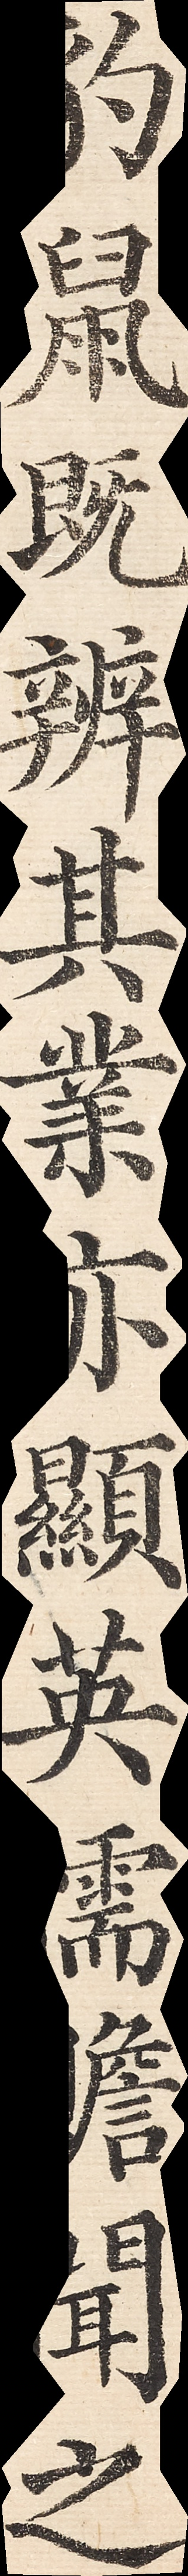豹鼠既辯其業亦顯英儒贍聞之
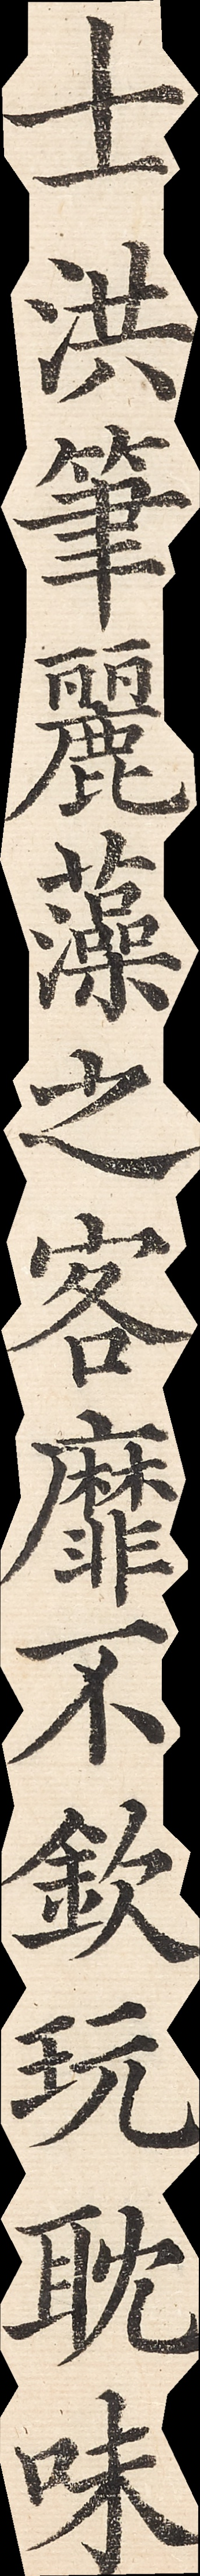士洪筆麗藻之客靡不欽玩耽味
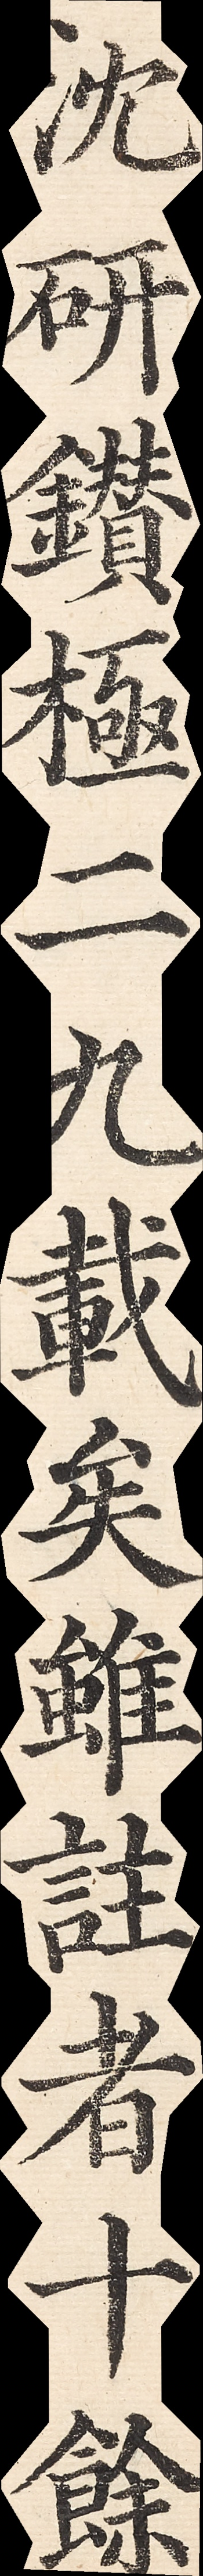沈研鑽極二九載矣雖注者十餘
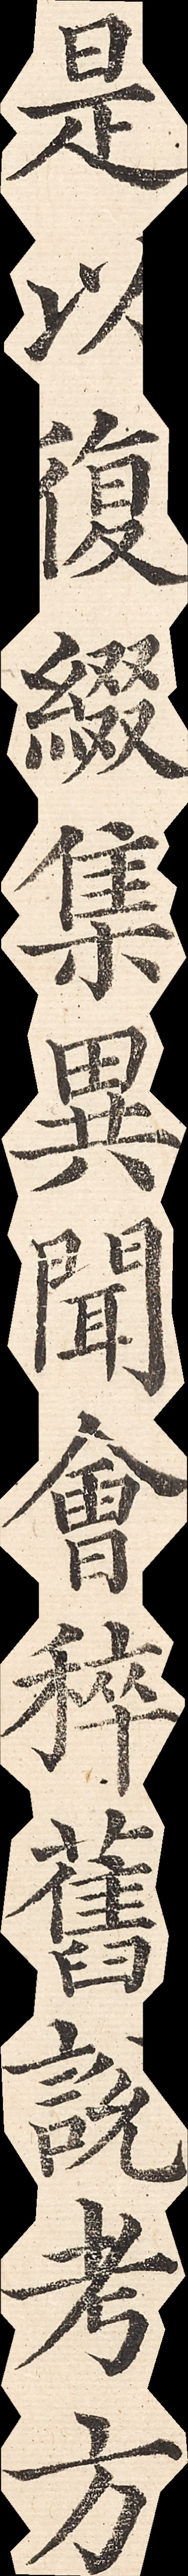是以復綴集異聞會稡舊說考方
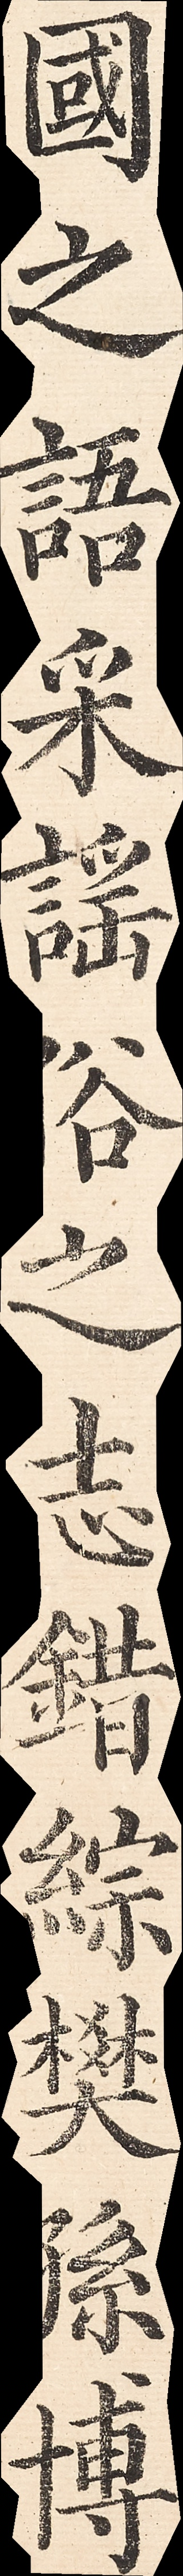國之語采謠俗之志錯綜樊孫博
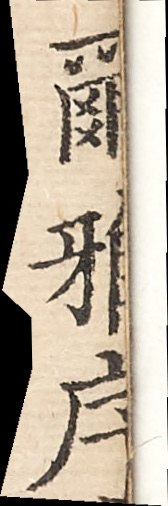爾雅序
